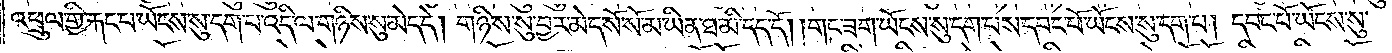འཕྲུལ་གྱི་རྐང་པ་ཡོངས་སུ་དག་པ་འདི་ལ་གཉིས་སུ་མེད་དེ། གཉིས་སུ་བྱར་མེད་སོ་སོ་མ་ཡིན་ཐ་མི་དད་དོ། །གང་ཟག་ཡོངས་སུ་དག་པས་དབང་པོ་ཡོངས་སུ་དག་པ། དབང་པོ་ཡོངས་སུ་
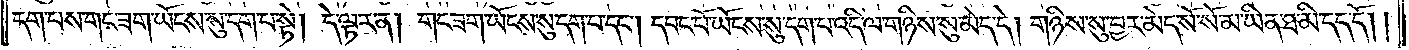དག་པས་གང་ཟག་ཡོངས་སུ་དག་པ་སྟེ། དེ་ལྟར་ན། གང་ཟག་ཡོངས་སུ་དག་པ་དང༌། དབང་པོ་ཡོངས་སུ་དག་པ་འདི་ལ་གཉིས་སུ་མེད་དེ། གཉིས་སུ་བྱར་མེད་སོ་སོ་མ་ཡིན་ཐ་མི་དད་དོ༎
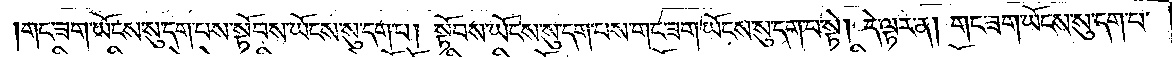གང་ཟག་ཡོངས་སུ་དག་པས་སྟོབས་ཡོངས་སུ་དག་པ། སྟོབས་ཡོངས་སུ་དག་པས་གང་ཟག་ཡོངས་སུ་དག་པ་སྟེ། དེ་ལྟར་ན། གང་ཟག་ཡོངས་སུ་དག་པ་
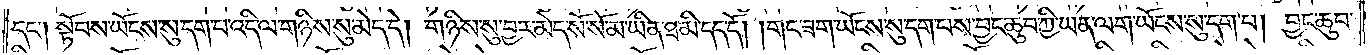དང༌། སྟོབས་ཡོངས་སུ་དག་པ་འདི་ལ་གཉིས་སུ་མེད་དེ། གཉིས་སུ་བྱར་མེད་སོ་སོ་མ་ཡིན་ཐ་མི་དད་དོ། །གང་ཟག་ཡོངས་སུ་དག་པས་བྱང་ཆུབ་ཀྱི་ཡན་ལག་ཡོངས་སུ་དག་པ། བྱང་ཆུབ་
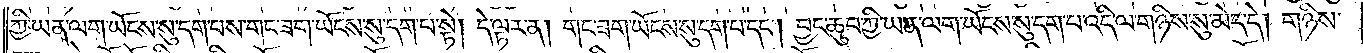ཀྱི་ཡན་ལག་ཡོངས་སུ་དག་པས་གང་ཟག་ཡོངས་སུ་དག་པ་སྟེ། དེ་ལྟར་ན། གང་ཟག་ཡོངས་སུ་དག་པ་དང༌། བྱང་ཆུབ་ཀྱི་ཡན་ལག་ཡོངས་སུ་དག་པ་འདི་ལ་གཉིས་སུ་མེད་དེ། གཉིས་
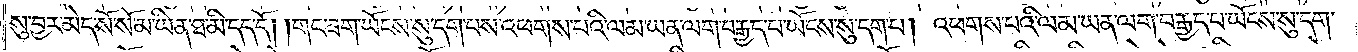སུ་བྱར་མེད་སོ་སོ་མ་ཡིན་ཐ་མི་དད་དོ། །གང་ཟག་ཡོངས་སུ་དག་པས་འཕགས་པའི་ལམ་ཡན་ལག་བརྒྱད་པ་ཡོངས་སུ་དག་པ། འཕགས་པའི་ལམ་ཡན་ལག་བརྒྱད་པ་ཡོངས་སུ་དག་
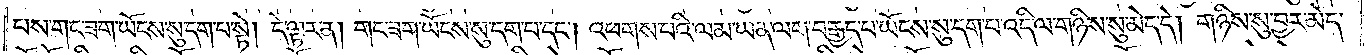པས་གང་ཟག་ཡོངས་སུ་དག་པ་སྟེ། དེ་ལྟར་ན། གང་ཟག་ཡོངས་སུ་དག་པ་དང༌། འཕགས་པའི་ལམ་ཡན་ལག་བརྒྱད་པ་ཡོངས་སུ་དག་པ་འདི་ལ་གཉིས་སུ་མེད་དེ། གཉིས་སུ་བྱར་མེད་
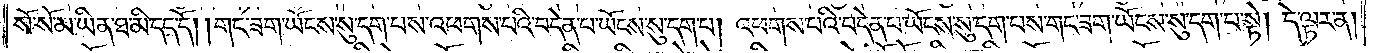སོ་སོ་མ་ཡིན་ཐ་མི་དད་དོ། །གང་ཟག་ཡོངས་སུ་དག་པས་འཕགས་པའི་བདེན་པ་ཡོངས་སུ་དག་པ། འཕགས་པའི་བདེན་པ་ཡོངས་སུ་དག་པས་གང་ཟག་ཡོངས་སུ་དག་པ་སྟེ། དེ་ལྟར་ན།
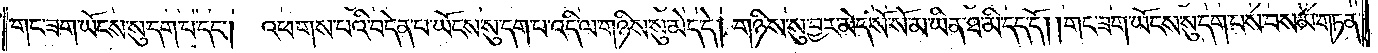གང་ཟག་ཡོངས་སུ་དག་པ་དང༌། འཕགས་པའི་བདེན་པ་ཡོངས་སུ་དག་པ་འདི་ལ་གཉིས་སུ་མེད་དེ། གཉིས་སུ་བྱར་མེད་སོ་སོ་མ་ཡིན་ཐ་མི་དད་དོ། །གང་ཟག་ཡོངས་སུ་དག་པས་བསམ་གཏན་
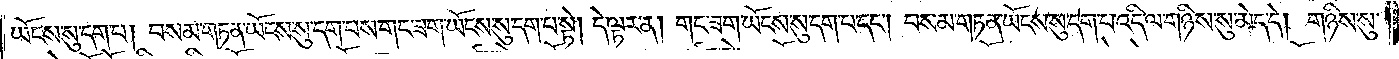ཡོངས་སུ་དག་པ། བསམ་གཏན་ཡོངས་སུ་དག་པས་གང་ཟག་ཡོངས་སུ་དག་པ་སྟེ། དེ་ལྟར་ན། གང་ཟག་ཡོངས་སུ་དག་པ་དང༌། བསམ་གཏན་ཡོངས་སུ་དག་པ་འདི་ལ་གཉིས་སུ་མེད་དེ། གཉིས་སུ་
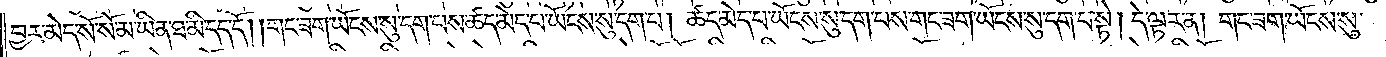བྱར་མེད་སོ་སོ་མ་ཡིན་ཐ་མི་དད་དོ། །གང་ཟག་ཡོངས་སུ་དག་པས་ཚད་མེད་པ་ཡོངས་སུ་དག་པ། ཚད་མེད་པ་ཡོངས་སུ་དག་པས་གང་ཟག་ཡོངས་སུ་དག་པ་སྟེ། དེ་ལྟར་ན། གང་ཟག་ཡོངས་སུ་
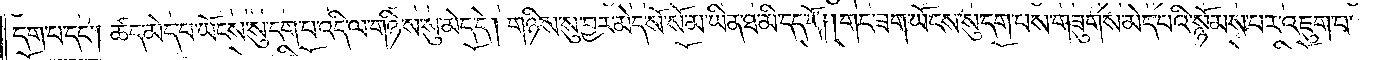དག་པ་དང༌། ཚད་མེད་པ་ཡོངས་སུ་དག་པ་འདི་ལ་གཉིས་སུ་མེད་དེ། གཉིས་སུ་བྱར་མེད་སོ་སོ་མ་ཡིན་ཐ་མི་དད་དོ། །གང་ཟག་ཡོངས་སུ་དག་པས་གཟུགས་མེད་པའི་སྙོམས་པར་འཇུག་པ་
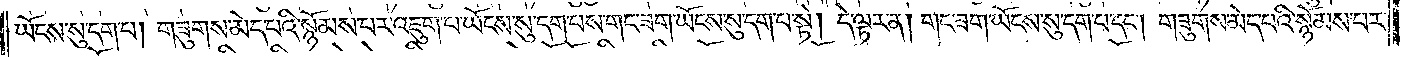ཡོངས་སུ་དག་པ། གཟུགས་མེད་པའི་སྙོམས་པར་འཇུག་པ་ཡོངས་སུ་དག་པས་གང་ཟག་ཡོངས་སུ་དག་པ་སྟེ། དེ་ལྟར་ན། གང་ཟག་ཡོངས་སུ་དག་པ་དང༌། གཟུགས་མེད་པའི་སྙོམས་པར་
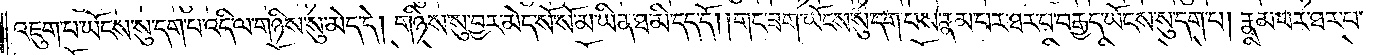འཇུག་པ་ཡོངས་སུ་དག་པ་འདི་ལ་གཉིས་སུ་མེད་དེ། གཉིས་སུ་བྱར་མེད་སོ་སོ་མ་ཡིན་ཐ་མི་དད་དོ། །གང་ཟག་ཡོངས་སུ་དག་པས་རྣམ་པར་ཐར་པ་བརྒྱད་ཡོངས་སུ་དག་པ། རྣམ་པར་ཐར་པ་
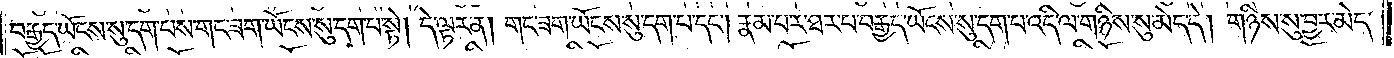བརྒྱད་ཡོངས་སུ་དག་པས་གང་ཟག་ཡོངས་སུ་དག་པ་སྟེ། དེ་ལྟར་ན། གང་ཟག་ཡོངས་སུ་དག་པ་དང༌། རྣམ་པར་ཐར་པ་བརྒྱད་ཡོངས་སུ་དག་པ་འདི་ལ་གཉིས་སུ་མེད་དེ། གཉིས་སུ་བྱར་མེད་
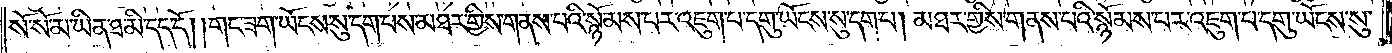སོ་སོ་མ་ཡིན་ཐ་མི་དད་དོ། །གང་ཟག་ཡོངས་སུ་དག་པས་མཐར་གྱིས་གནས་པའི་སྙོམས་པར་འཇུག་པ་དགུ་ཡོངས་སུ་དག་པ། མཐར་གྱིས་གནས་པའི་སྙོམས་པར་འཇུག་པ་དགུ་ཡོངས་སུ་
